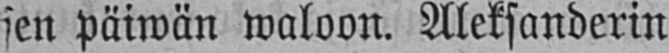sen päiwän waloon. Aleksanderin
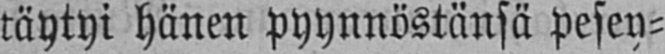täytyi hänen pyynnöstänsä pesey-
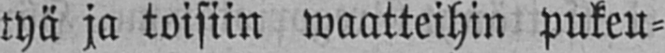tyä ja toisiin waatteihin pukeu-
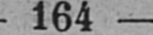— 164 —
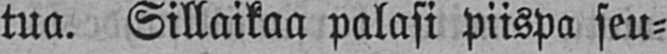tua. Sillaikaa palasi piispa seu-
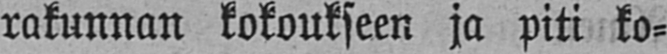rakunnan kokoukseen ja piti ko-
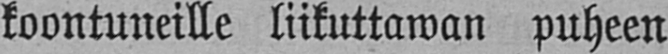koontuneille liikuttawan puheen
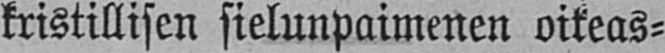kristillisen sielunpaimenen oikeas-
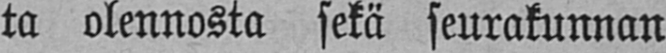ta olennosta sekä seurakunnan
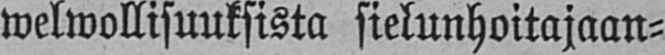welwollisuuksista sielunhoitajaan-
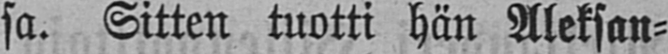sa. Sitten tuotti hän Aleksan-
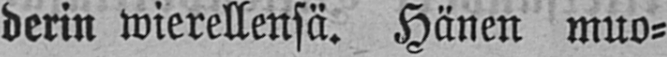derin wierellensä. Hänen muo-
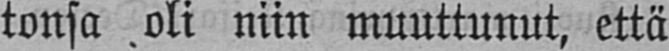tonsa oli niin muuttunut, että
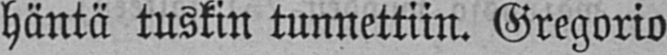häntä tuskin tunnettiin. Gregorio
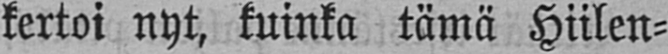kertoi nyt, kuinka tämä Hiilen-
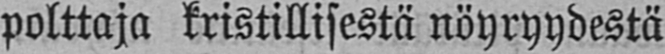polttaja kristillisestä nöyryydestä
